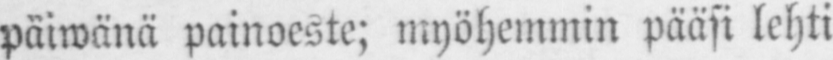paiwänä painoeste; myöhemmin pääsi lehti
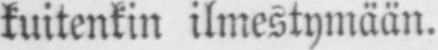kuitenkin ilmestymään.
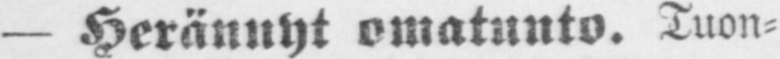— Herännyt omatunto. Tuon-
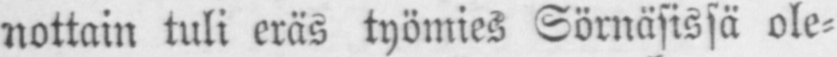nottain tuli eräs työmies Sörnäsissä ole-
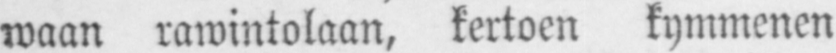waan rawintolaan, kertoen kymmenen
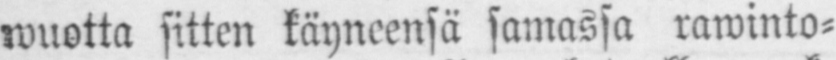wuotta sitten käyneensä samassa rawinto-
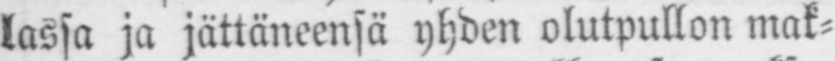lassa ja jättäneensä yhden olutpullon mak-
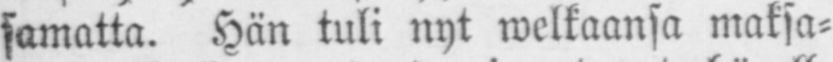samatta. Hän tuli nyt welkaansa maksa-
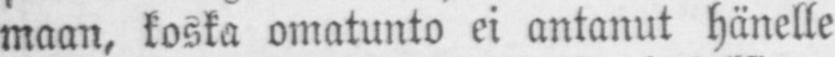maan, koska omatunto ei antanut hänelle
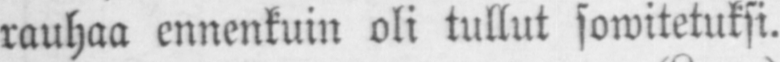rauhaa ennenkuin oli tullut sowitetuksi.
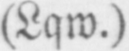(Lqw.)
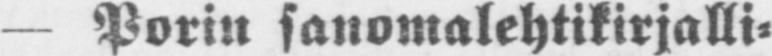— Porin sanomalehtikirjalli-
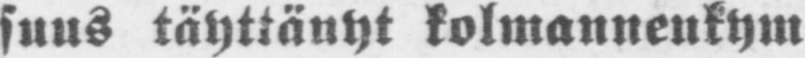suus täyttänyt kolmannenkym-
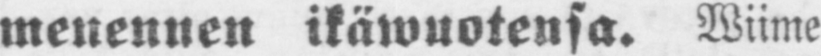menennen ikäwuotensa. Wiime
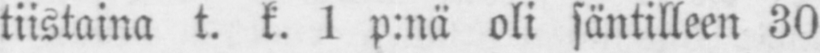tiistaina t. k. 1 p:nä oli säntilleen 30
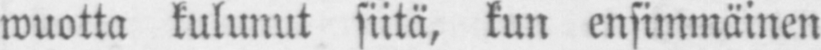wuotta kulunut siitä, kun ensimmäinen
